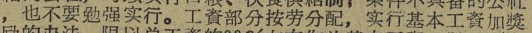，也不要勉强实行。工資部分按劳分配，实行基本工資加獎
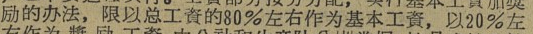励的办法，限以总工資的80％左右作为基本工資，以20％左
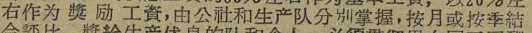右作为 獎 励 工資，由公社和生产队分別掌握，按月或按季結
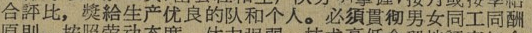合評比，獎給生产优良的队和个人。必須貫彻男女同工同酬
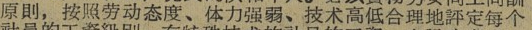原則，按照劳动态度、体力强弱、技术高低合理地評定每个
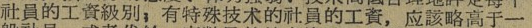社員的工資級別；有特殊技术的社員的工資，应該略高于一
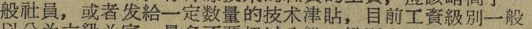般社員，或者发給一定数量的技术津貼，目前工資級別一般
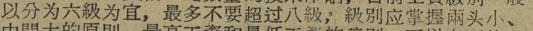以分为六級为宜，最多不要超过八級，級別应掌握兩头小、
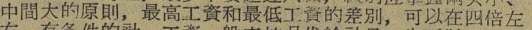中間大的原則，最高工資和最低工資的差別，可以在四倍左
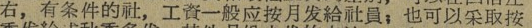右，有条件的社，工資一般应按月发給社員；也可以采取按
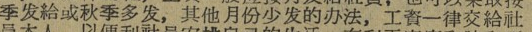季发給或秋季多发，其他月份上发的办法，工資一律交給社
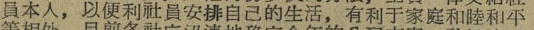員本人，以便利社員安排自己的生活，有利于家庭和睦和平
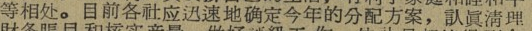等相处。目前各設应迅速地确定今年的分配方案，认眞清理
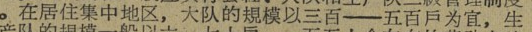。在居住集中地区，大队的規模以三百——五百戶为宜，生
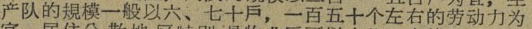产队的規模一般一六、七十戶，一百五十个左右的劳动力为
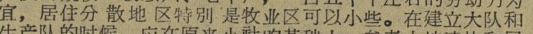宜，居住分 散地 区特別 是牧业区可以小些。在建立大队和
